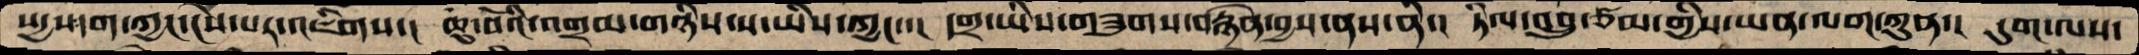སདྱས་དག་ཀྱང་ངེས་པར་འཇིགས་།  ཆུ་བོའི་འགྲམ་གཉིས་ས་ཡིས་ཀྱང་་།  དགྲ་ཡིས་གཟུགས་བརྙེན་བྱས་ནས་ནི་།  ཏིལ་འབྲུ་ཙམ་གྱིས་ཡན་ལག་ཀུན་། དུག་ལས་
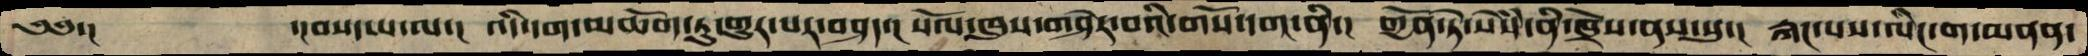༄༅་།    ་།བསད་པ་ལ་།  འདི་དག་མཆོག་ཏུ་གྱུར་པར་བཤད་།  སོལ་ཁུས་གཤེར་བའི་གོས་དག་ནི་།  གྱོན་ཏེ་སེཾས་ནི་ཁྲོས་ནས་སུ་།  རྐང་པས་ལིང་ག་མནན་
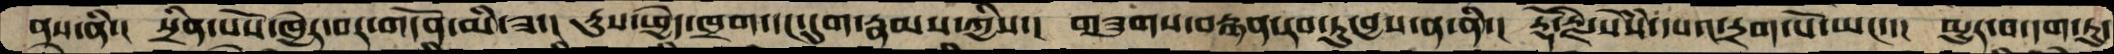ནས་ནི་།  སྲིན་པོས་ཁྱེར་བར་གདོན་མི་ཟ་།  རུས་ཕྱེད་ཁྲག་དང་དུག་རྣམས་ཀྱིས་།  གཟུགས་བརྙན་རབ་ཏུ་བྱས་ན་ནི་།  རྡོ་རྗེ་སེཾས་དཔའ་དྲག་པོ་ཡང་་།  མྱུར་བ་དག་ཏུ་
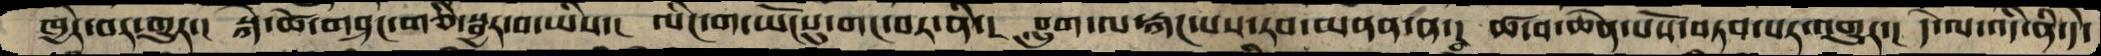ཁྱེར་བར་གྱུར་།  སྐེ་ཚེ་གཤང་གཅི་སྦྱར་བ་ཡིས་།  ལིང་ག་ཡོངསུ་གང་བར་ནི་།  བླུག་ལ་རྐང་པས་རབ་མནན་ན་།  ཚ་བ་ཆེན་པོས་བཏབ་པར་འགྱུར་།  དེ་ལ་འདི་ནི་དེ་
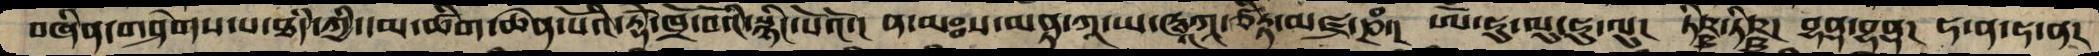བཞིན་གཤེགས་པ་ཐཾད་ཀྱི་དམ་ཚིག་ཆེན་པོའི་རྡོེ་ཁྲོ་བོའི་སྙིང་པོའོ་།  ན་མཿས་མནྟ་ཀཱ་ཡ་ཝཱཀཱ་ཙིཏྟ་མཛྲ་ཎཾ་།  ཨོཾ་ཧུ་ལུ་ཧུ་ལུ།   ཏིཥྛ་ཏིཥྛ།  བྷནྡ་བྷནྡ།  ཧ་ན་ཧ་ན།
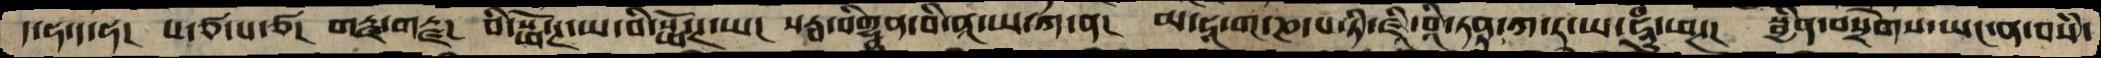ད་ཧ་ད་ཧ།  པ་ཙ་པ་ཙ།  གརྫ་གརྫ།  བི་སྥོ་ཊ་ཡ་བི་སྥོ་ཊ་ཡ།  སརྦ་བིགྷཱན་བི་ནཱ་ཡ་ཀ་ན།  མ་ཧཱ་ག་ཎ་པ་ཏི་ཛཱི་བཱི་ཏནྟ་ཀ་ར་ཡ་ཧཱུཾ་ཕཊ།  སྦྱིན་བསྲེགས་ཡང་ན་བསཾ་
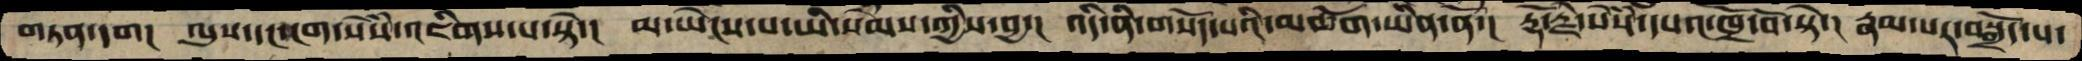གཏན་དག།  ལུས་དང་ངག་སེཾས་འཇིགས་པ་སྟེ་།  མ་ཡེངས་པ་ཡི་སེམས་ཀྱིས་བྱ་།  འདི་ནི་གསོད་པའི་མཆོག་ཡིན་ནོ་།  རྡོ་རྗེ་སེཾས་དཔའ་ཁྲོ་བོ་སྟེ་།  རྣམ་པར་བསྒྲོད་པ་
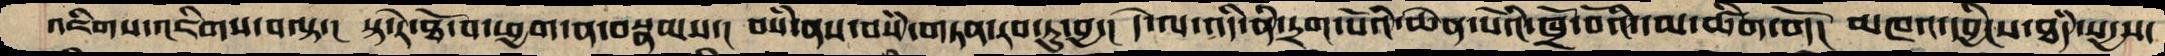འཇིགས་འཇིགས་བལྟ་།  སྟ་རེ་ཐོ་བ་ཕྱག་ན་བསྣམས་།  བསཾ་ནས་བསཾ་གཏན་རབ་ཏུ་བྱ་།  དེ་ལ་འདི་ནི་དྲག་པོའི་ཆེན་པོའི་ཁྲོ་བོའི་དམ་ཚིག་གོ།  མཁའ་དབྱིངས་ཐཾད་སདྱས་
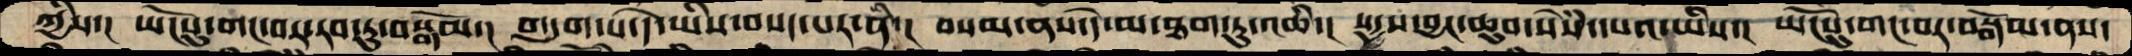ཀྱིས་།  ཡོངསུ་གང་བར་རབ་ཏུ་བསྒོམ་།  གདུག་པ་དེ་ཡིས་བསད་པར་ནི་།  བསམ་ན་དེ་མ་ཐག་ཏུ་འཆི་།  སདྱས་བྱང་ཆུབ་སེཾས་དཔའ་ཡིས་།  ཡོངསུ་གང་བར་བསྒོམ་ནས་
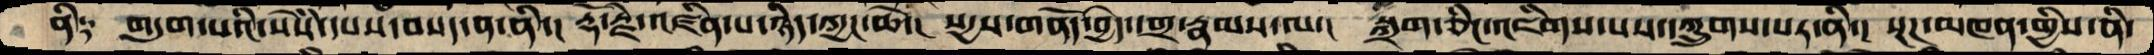ནི༑  གདུག་པའི་སེཾས་དཔས་བསད་ན་ནི་།  རྡོ་རྗེ་འཛིན་པ་ཉིད་ཀྱང་ཆེ་།  སདྱས་གནོད་བྱེད་དགྲ་རྣམས་ལ་།  སྐྲག་ཅིང་འཇིགས་པས་དཀྲུགས་པར་ནི་།  སྔཌ་མཁན་གྱིས་ནི་
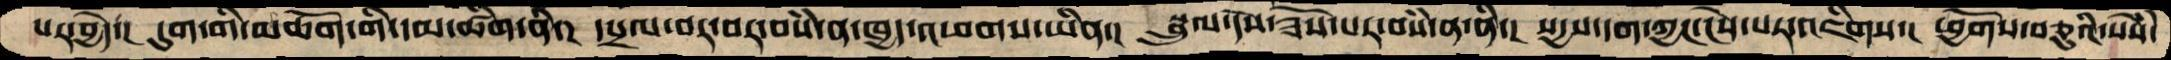པར་བྱེད་།  དུག་གི་མཆོག་གི་དམ་ཚིག་ནི་།  དཔྲལ་བར་བར་བསཾ་ན་ཁྱད་འཕགས་ཡིན་།  སྦྲུལ་དེས་ཟོས་པར་བསཾ་ན་ནི་།  སདྱས་དག་ཀྱང་ངེས་པར་འཇིགས་།  ཕྱོགས་བཅུའི་སེཾས་
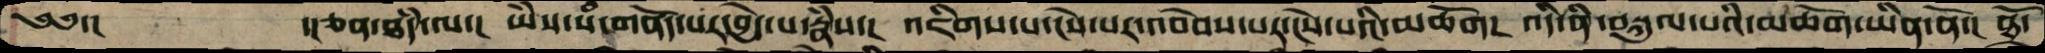༄༅་།     ་།ཅན་ཐཾད་ལ་།  ཡཾས་སཾ་གནོད་པར་བྱེད་པ་རྣཾས་།  འཇིགས་པ་ངེས་པར་འབེབས་པར་ངེས་པའི་མཆོག།  འདི་ནི་བསྐུལ་པའི་མཆོག་ཡིན་ནོ་།  ཐོ་
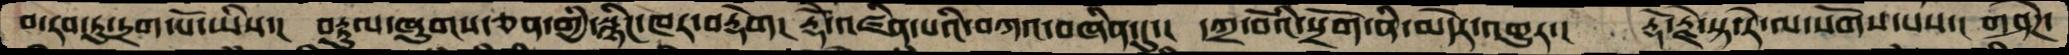བ་རབ་ཏུ་དྲག་པོ་ཡིས་།  བརྟུལ་ཞུགས་ཅན་གྱི་སྙིང་ཁར་བརྡེག།  རྡོེ་འཛིན་པའི་བཀའ་བཞིན་དུ་།  དགྲ་བོའི་སྲོག་ནི་མདེར་འགྱུར་། རྡོ་རྗེ་སྟ་རེ་ལ་སོགས་པས་།  གཤེཌ་
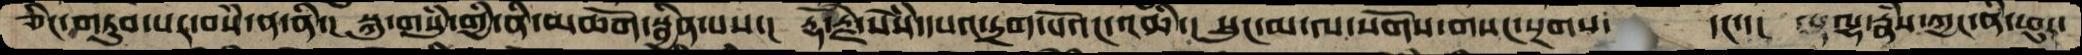ཅིང་གཏུབ་པར་བསཾ་ན་ནི་།  སྐུ་གསུཾ་གྱི་ནི་མཆོག་སྦྱིན་པས་།  རྡོ་རྗེ་སེཾས་དཔའ་དྲག་པོའང་འཆི་།  སྲུང་མ་ལ་སོགས་གསང་སྔགས་    དང་་།  ལྷ་རྣཾས་ཀྱང་ནི་ཕུར་
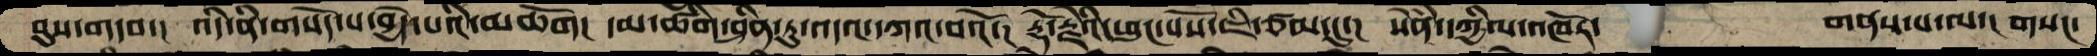བུས་གདབ་།  འདི་ནི་གསོད་པ་བྱེད་པའི་མཆོག།  དམ་ཚིག་ཤིན་ཏུ་འདའ་དཀའ་བའོ་།  རྡོ་རྗེའི་ཕུང་པོས་ཇི་ཙམ་དུ་།  སེནཾ་དཀྱིལ་འཁོར་       གནས་པ་ལ་།  གསང་
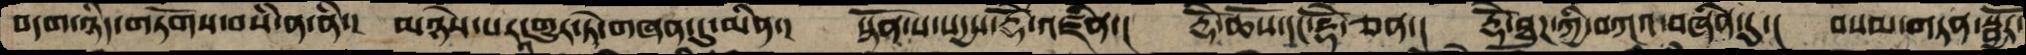བདག་ཉིད་གཏོགས་བསཾ་ན་ནི་།  མཉེས་པར་གྱུར་ཏེ་གཞན་དུ་མིན་།  སྟོན་པ་སདྱས་རྡོེ་འཛིན་།  རྡོེ་ཆོས་དང་རྡོེ་ཅན་།  རྡོེ་ཐུཌ་ཀྱི་བཀའ་བཞིན་དུ་།  བསམ་གཏན་སྦྱོར་
